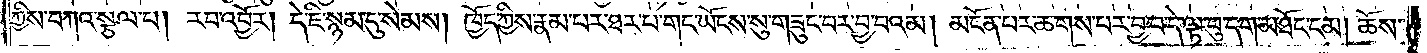ཀྱིས་བཀའ་སྩལ་པ། རབ་འབྱོར། དེ་ཇི་སྙམ་དུ་སེམས། ཁྱོད་ཀྱིས་རྣམ་པར་ཐར་པ་གང་ཡོངས་སུ་གཟུང་བར་བྱ་བའམ། མངོན་པར་ཆགས་པར་བྱ་བ་དེ་ལྟ་བུ་དག་མཐོང་ངམ། ཆོས་
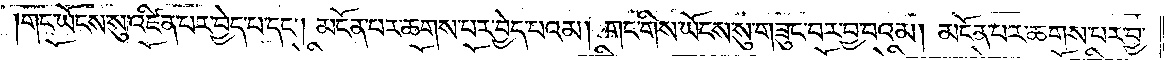གང་ཡོངས་སུ་འཛིན་པར་བྱེད་པ་དང༌། མངོན་པར་ཆགས་པར་བྱེད་པའམ། གང་གིས་ཡོངས་སུ་གཟུང་བར་བྱ་བའམ། མངོན་པར་ཆགས་པར་བྱ་
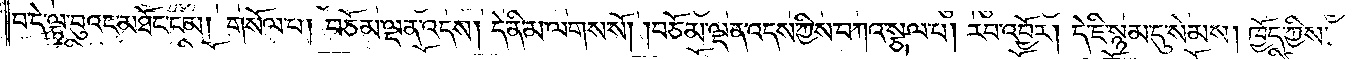བ་དེ་ལྟ་བུའང་མཐོང་ངམ། གསོལ་པ། བཅོམ་ལྡན་འདས། དེ་ནི་མ་ལགས་སོ། །བཅོམ་ལྡན་འདས་ཀྱིས་བཀའ་སྩལ་པ། རབ་འབྱོར། དེ་ཇི་སྙམ་དུ་སེམས། ཁྱོད་ཀྱིས་
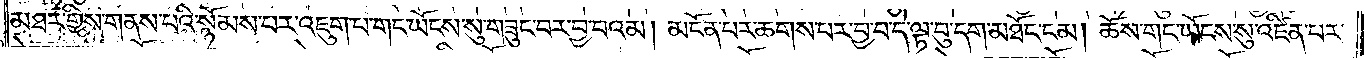མཐར་གྱིས་གནས་པའི་སྙོམས་པར་འཇུག་པ་གང་ཡོངས་སུ་གཟུང་བར་བྱ་བའམ། མངོན་པར་ཆགས་པར་བྱ་བ་དེ་ལྟ་བུ་དག་མཐོང་ངམ། ཆོས་གང་ཡོངས་སུ་འཛིན་པར་
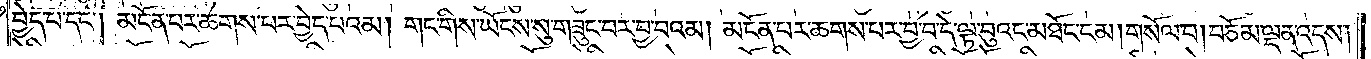བྱེད་པ་དང༌། མངོན་པར་ཆགས་པར་བྱེད་པའམ། གང་གིས་ཡོངས་སུ་གཟུང་བར་བྱ་བའམ། མངོན་པར་ཆགས་པར་བྱ་བ་དེ་ལྟ་བུའང་མཐོང་ངམ། གསོལ་པ། བཅོམ་ལྡན་འདས།
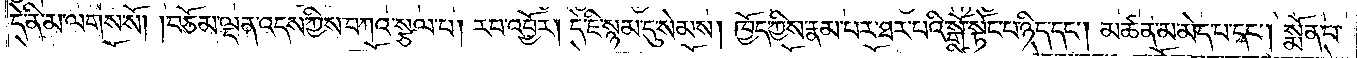དེ་ནི་མ་ལགས་སོ། །བཅོམ་ལྡན་འདས་ཀྱིས་བཀའ་སྩལ་པ། རབ་འབྱོར། དེ་ཇི་སྙམ་དུ་སེམས། ཁྱོད་ཀྱིས་རྣམ་པར་ཐར་པའི་སྒོ་སྟོང་པ་ཉིད་དང༌། མཚན་མ་མེད་པ་དང༌། སྨོན་པ་
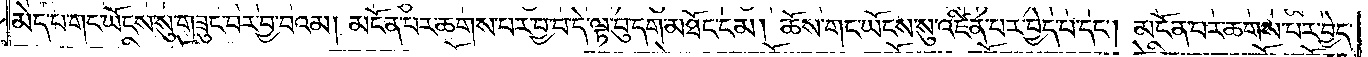མེད་པ་གང་ཡོངས་སུ་གཟུང་བར་བྱ་བའམ། མངོན་པར་ཆགས་པར་བྱ་བ་དེ་ལྟ་བུ་དག་མཐོང་ངམ། ཆོས་གང་ཡོངས་སུ་འཛིན་པར་བྱེད་པ་དང༌། མངོན་པར་ཆགས་པར་བྱེད་
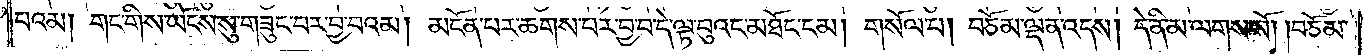པའམ། གང་གིས་ཡོངས་སུ་གཟུང་བར་བྱ་བའམ། མངོན་པར་ཆགས་པར་བྱ་བ་དེ་ལྟ་བུའང་མཐོང་ངམ། གསོལ་པ། བཅོམ་ལྡན་འདས། དེ་ནི་མ་ལགས་སོ། །བཅོམ་
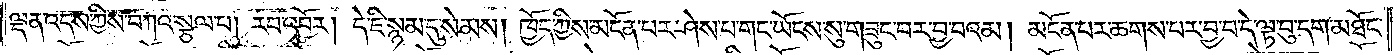ལྡན་འདས་ཀྱིས་བཀའ་སྩལ་པ། རབ་འབྱོར། དེ་ཇི་སྙམ་དུ་སེམས། ཁྱོད་ཀྱིས་མངོན་པར་ཤེས་པ་གང་ཡོངས་སུ་གཟུང་བར་བྱ་བའམ། མངོན་པར་ཆགས་པར་བྱ་བ་དེ་ལྟ་བུ་དག་མཐོང་
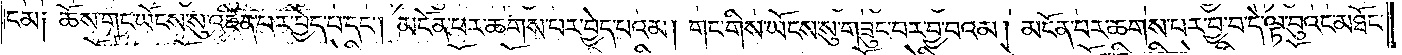ངམ༑ ཆོས་གང་ཡོངས་སུ་འཛིན་པར་བྱེད་པ་དང༌། མངོན་པར་ཆགས་པར་བྱེད་པའམ། གང་གིས་ཡོངས་སུ་གཟུང་བར་བྱ་བའམ། མངོན་པར་ཆགས་པར་བྱ་བ་དེ་ལྟ་བུའང་མཐོང་
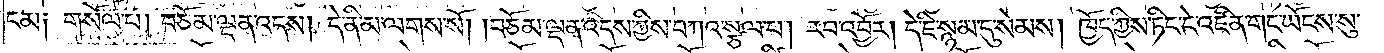ངམ༑ གསོལ་པ། བཅོམ་ལྡན་འདས། དེ་ནི་མ་ལགས་སོ། །བཅོམ་ལྡན་འདས་ཀྱིས་བཀའ་སྩལ་པ། རབ་འབྱོར། དེ་ཇི་སྙམ་དུ་སེམས། ཁྱོད་ཀྱིས་ཏིང་ངེ་འཛིན་གང་ཡོངས་སུ་
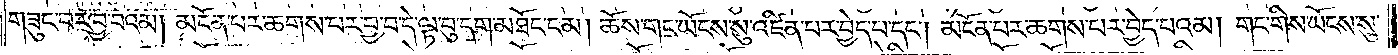གཟུང་བར་བྱ་བའམ། མངོན་པར་ཆགས་པར་བྱ་བ་དེ་ལྟ་བུ་དག་མཐོང་ངམ། ཆོས་གང་ཡོངས་སུ་འཛིན་པར་བྱེད་པ་དང༌། མངོན་པར་ཆགས་པར་བྱེད་པའམ། གང་གིས་ཡོངས་སུ་
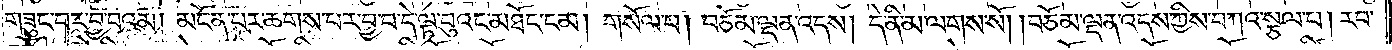གཟུང་བར་བྱ་བའམ། མངོན་པར་ཆགས་པར་བྱ་བ་དེ་ལྟ་བུའང་མཐོང་ངམ། གསོལ་པ། བཅོམ་ལྡན་འདས། དེ་ནི་མ་ལགས་སོ། །བཅོམ་ལྡན་འདས་ཀྱིས་བཀའ་སྩལ་པ། རབ་
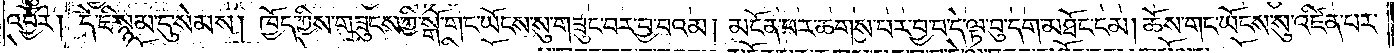འབྱོར། དེ་ཇི་སྙམ་དུ་སེམས། ཁྱོད་ཀྱིས་གཟུངས་ཀྱི་སྒོ་གང་ཡོངས་སུ་གཟུང་བར་བྱ་བའམ། མངོན་པར་ཆགས་པར་བྱ་བ་དེ་ལྟ་བུ་དག་མཐོང་ངམ། ཆོས་གང་ཡོངས་སུ་འཛིན་པར་
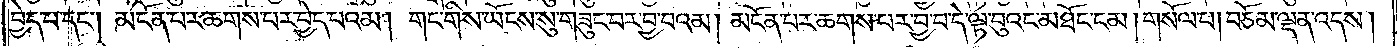བྱེད་པ་དང༌། མངོན་པར་ཆགས་པར་བྱེད་པའམ། གང་གིས་ཡོངས་སུ་གཟུང་བར་བྱ་བའམ། མངོན་པར་ཆགས་པར་བྱ་བ་དེ་ལྟ་བུའང་མཐོང་ངམ། གསོལ་པ། བཅོམ་ལྡན་འདས།
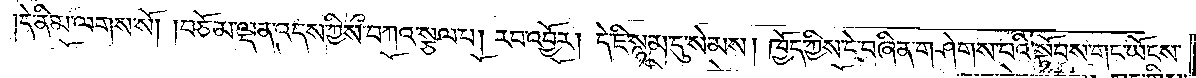དེ་ནི་མ་ལགས་སོ། །བཅོམ་ལྡན་འདས་ཀྱིས་བཀའ་སྩལ་པ། རབ་འབྱོར། དེ་ཇི་སྙམ་དུ་སེམས། ཁྱོད་ཀྱིས་དེ་བཞིན་གཤེགས་པའི་སྟོབས་གང་ཡོངས་
